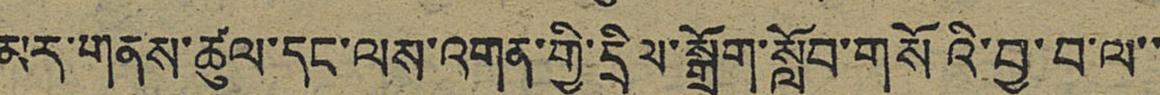མར་གནས་ཚུལ་དང་ལས་འགན་གྱི་དྲིལ་སྒྲོག་སློབ་གསོའི་བྱ་བ་ལ་་
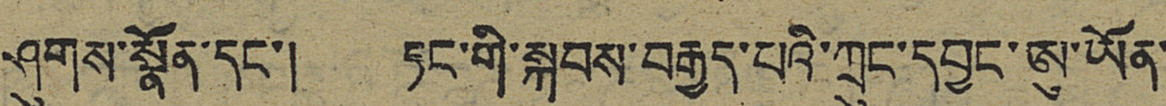ཤུགས་སྣོན་དང་། ཏང་གི་སྐབས་བརྒྱད་པའི་ཀྲུང་དབྱང་ཨུ་ཡོན་
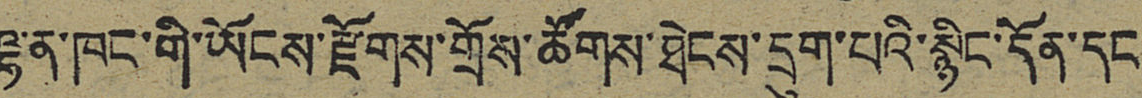ལྷན་ཁང་གི་ཡོངས་རྫོགས་གྲོས་ཚོགས་ཐེངས་དྲུག་པའི་སྙིང་དོན་དང་
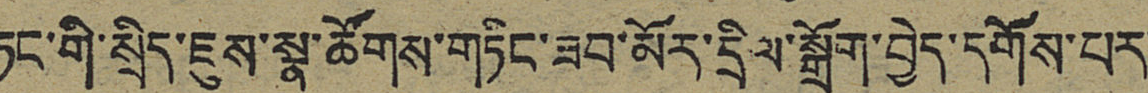ཏང་གི་སྲིད་ཇུས་སྣ་ཚོགས་གཏིང་ཟབ་མོར་དྲིལ་སྒྲོག་བྱེད་དགོས་པར་
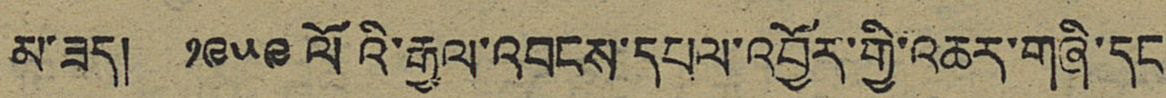མ་ཟད། ༡༩༥༩ ལོའི་རྒྱལ་འབངས་དཔལ་འབྱོར་གྱི་འཆར་གཞི་དང་
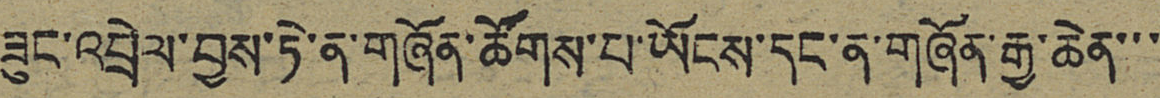ཟུང་འབྲེལ་བྱས་ཏེ་ན་གཞོན་ཚོགས་པ་ཡོངས་དང་ན་གཞོན་རྒྱ་ཆེན་་་
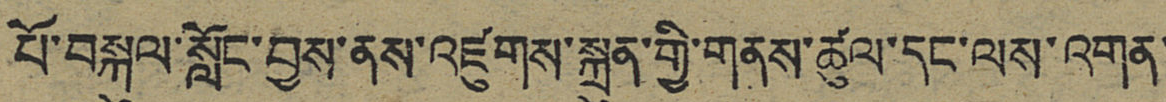པོ་བསྐུལ་སློང་བྱས་ནས་འཛུགས་སྐྲུན་གྱི་གནས་ཚུལ་དང་ལས་འགན་
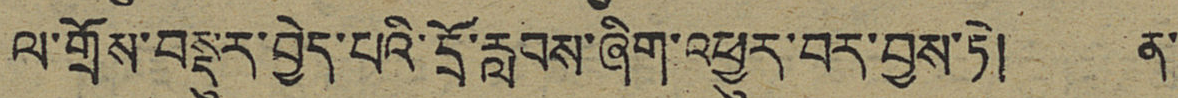ལ་གྲོས་བསྡུར་བྱེད་པའི་དྲོ་རླབས་ཞིག་འཕྱུར་བར་བྱས་ཏེ། ན་
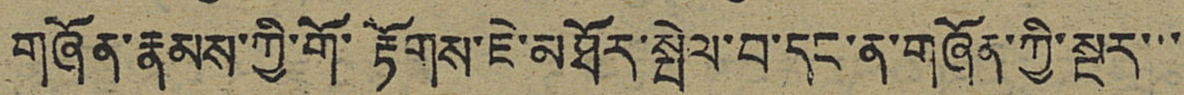གཞོན་རྣམས་ཀྱི་གོ་རྟོགས་ཇེ་མཐོར་སྤེལ་བ་དང་ན་གཞོན་ཀྱི་སྔར་་་
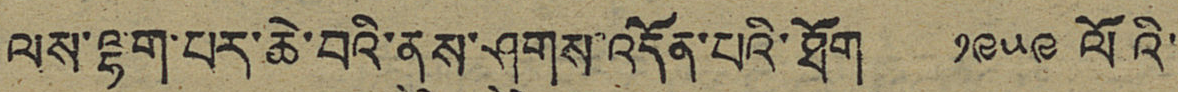ལས་ལྷག་པར་ཆེ་བའི་ནུས་ཤུགས་འདོན་པའི་ཐོག ༡༩༥༩ ལོའི་
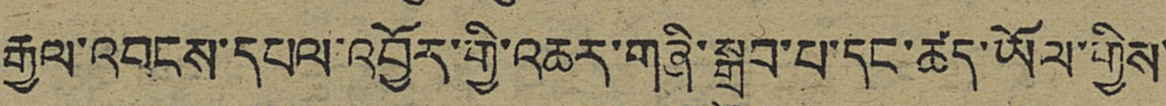རྒྱལ་འབངས་དཔལ་འབྱོར་གྱི་འཆར་གཞི་སྒྲུབ་པ་དང་ཚད་ཡོལ་གྱིས་
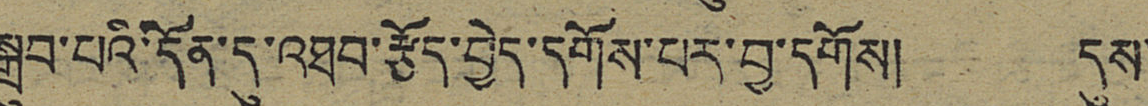སྒྲུབ་པའི་དོན་དུ་འཐབ་རྩོད་བྱེད་དགོས་པར་བྱ་དགོས། དུས་
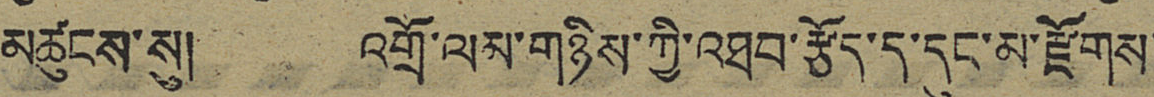མཚུངས་སུ། འགྲོ་ལམ་གཉིས་ཀྱི་འཐབ་རྩོད་ད་དུང་མ་རྫོགས་
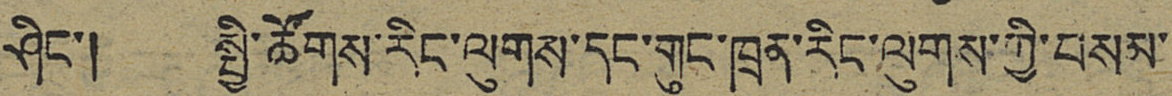ཤིང་། སྤྱི་ཚོགས་རིང་ལུགས་དང་གུང་ཁྲན་རིང་ལུགས་ཀྱི་བསམ་
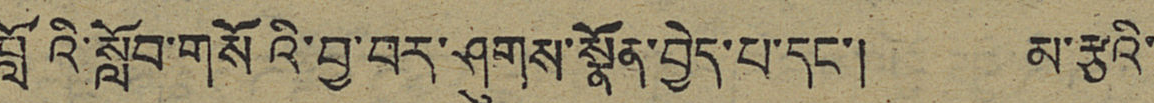བློའི་སློབ་གསོའི་བྱ་བར་ཤུགས་སྣོན་བྱེད་པ་དང་། མ་རྩའི་
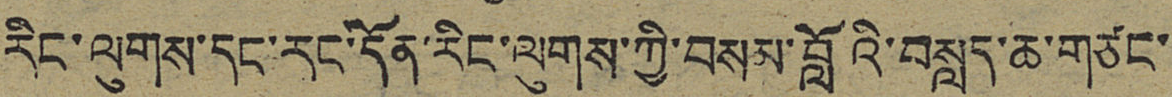རིང་ལུགས་དང་རང་དོན་རིང་ལུགས་ཀྱི་བསམ་བློའི་བསླད་ཆ་གཙང་
